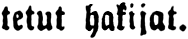tetut hakijat.
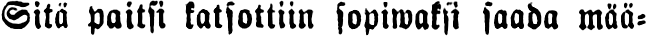Sitä paitsi katsottiin sopiwaksi saada mää-
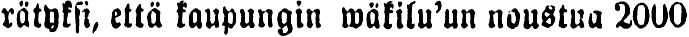rätyksi, että kaupungin wäkilu'un noustua 2000
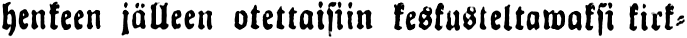henkeen jälleen otettaisiin keskusteltawaksi kirk-
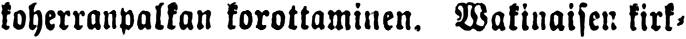koherranpalkan korottaminen. Wakinaisen kir-
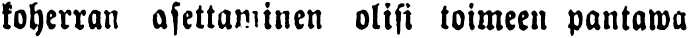koherran asettaminen olisi toimeen pantawa
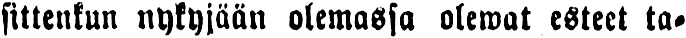sittenkun nykyjään olemassa olewat esteet ta-
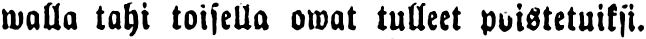walla tahi toisella owat tulleet poistetuiksi.
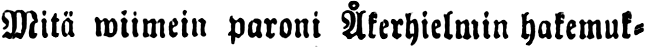Mitä wiimein paroni Åkerhielmin hakemuk-
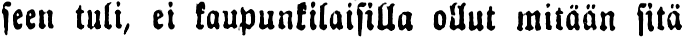seen tuli, ei kaupunkilaisilla ollut mitään sitä
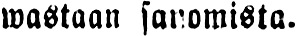wastaan sanomista.
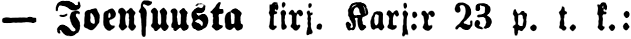— Joensuusta kirj. Karj:r 23 p. t. k.:
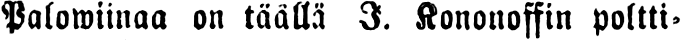Palowiinaa on täällä I. Kononoffin poltti-
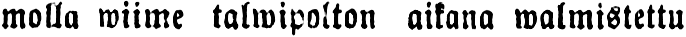molla wiime talwipolton aikana walmistettu
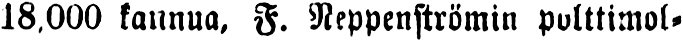18.000 kannua, F. Neppenströmin polttimol-
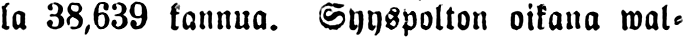la 38,639 kannua. Syyspolton oikana wal-
